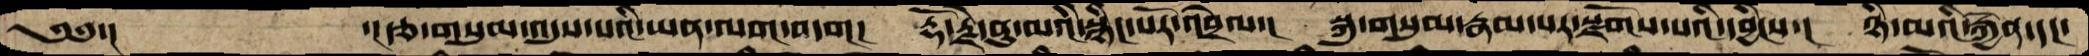༄༅་།           ་།རྩ་གསུམ་འདུས་པའི་ཡན་ལག་བདག།  རྡོ་རྗེ་ནུ་མའི་སྙིང་པོར་འབྲེལ་།   སྐུ་གསུམ་རྣམ་པར་སྫོགས་པའི་དབྱིངས་།  ཉི་མའི་རྐྱེན་དང་
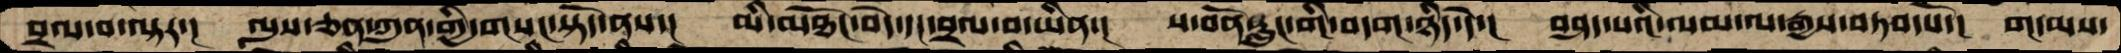བྲལ་བ་ལྟར་།  ལུས་ཅན་ཀུན་གྱི་གསང་སྟོད་ནས་།   མི་མཐོང་བདེ་དང་བྲལ་བ་ཡིན་།   ས་བོན་རླུང་གི་བདག་ཉིད་དེ་།   བཤད་པའི་ལམ་ལ་རྒྱས་བཏབ་པོ་།  གདམས་
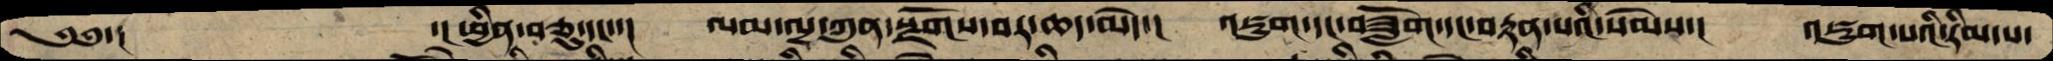༄༅་།      ་།ཕྱིན་བཅུ་དང་་།  ལམ་ལྔ་ཀུན་སྫོགས་བར་ཆད་མེད་།  འཇུག་དང་བཟློག་དང་བརྟན་པའི་སེམས་།  འཇུག་པའི་རིམ་པ་
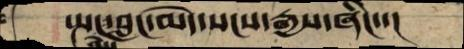སྤང་མེད་བླང་མེད་སངས་རྒྱས་ཞིང་་།
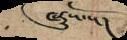ཞུས་སོ།
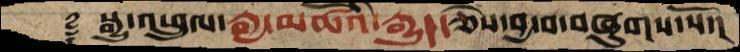࿑ སྒྱུ་འཕྲུལ་རྒྱ་མཚོའི་རྒྱུད་ཅེས་བྱ་བ་བཞུགས་སོ་།
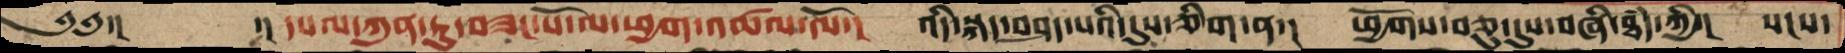༄༅་།     ་།དཔལ་ཀུན་ཏུ་བཟང་པོ་ལ་ཕྱག་འཚལ་ལོ་།  འདི་སྐད་བཤད་པའི་དུས་ཅིག་ན་།  ཕྱོགས་བཅུ་དུས་བཞི་ཐདཾ་ཀྱི་།  སངས་
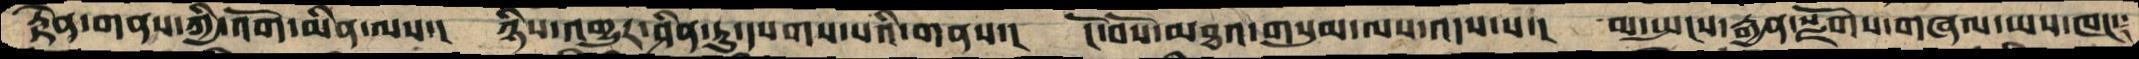རྟེན་གནས་ཀྱི་འོག་མིན་ལས་།  ཉིས་འགྱུར་ཤིན་ཏུ་དཔགས་པའི་གནས་།  ངོ་བོས་མཐའ་གསུམ་ལས་འདས་པ་།   མ་སྤངས་རྒྱན་སྫོགས་གཞལ་ཡས་ཁང་༑
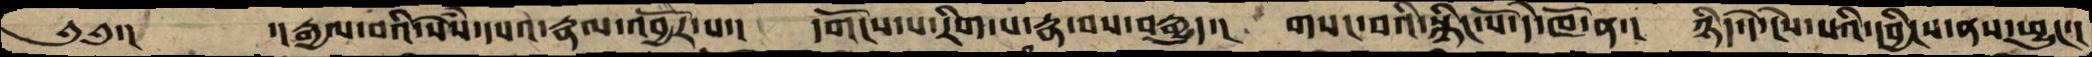༄༅་།     ་།རྒྱལ་བའི་སེཾས་དཔའ་རྣལ་འབྱོར་པ་།  དགོངས་པ་རིག་པ་རྣ་བས་བརྒྱུད་།  གསང་བའི་སྙིང་པོ་དེ་ཁོ་ན་།  ཉིད་དེ་ངེས་པའི་དབྱིངས་ནས་ཕྱུང་།
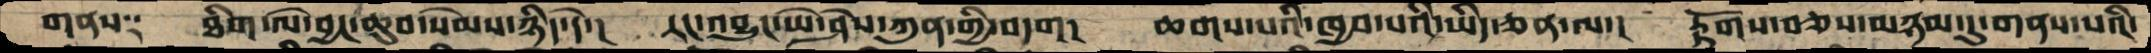གནས༑   ཐིག་ལེ་བྱང་ཆུབ་སེམས་ཉིད་དེ་།  རང་འབྱུང་ཡེ་ཤེས་ཀུན་གྱི་བདག།  ཆགས་པའི་ཁྱབ་པའི་ཡིད་ཅན་ལ་།  རྟོགས་བཅས་མཉམ་དུ་གནས་པའི་
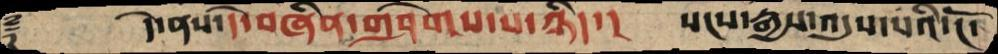࿑    དེ་ནས་དེ་བཞིན་གཤེགས་པ་ཉིད་།   སངས་རྒྱས་འདུས་པའི་ངོ་
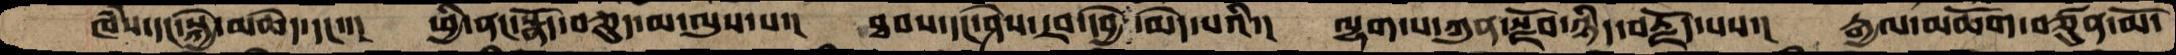ཁཾས་དང་སྐྱེ་མཆེད་དང་་།  ཕྱི་ནང་སྣོད་བཅུད་མ་ལུས་པ་།  ཐབས་དང་ཤེས་རབ་དབྱེར་མེད་པའི་།  ལྷག་པ་ཀུན་སྫོབ་ཉིད་བརྗོད་པས་།  རྒྱལ་མཆོག་བཙུན་མོ་
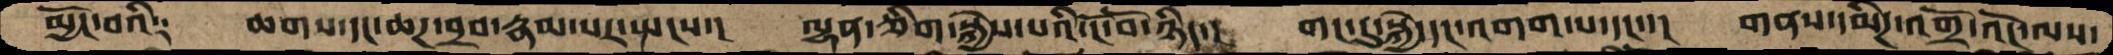མྱོང་བའི༑   ཆགས་དང་ཆཌ་བྲབ་རྣམ་པར་སྤངས་།  ལྷན་ཅིག་སྐྱེས་པའི་ངོ་བོ་ཉིད་།  གང་དུ་སྐྱེ་དང་འགག་པ་དང་་།  གནས་དམིཌ་འགྲོ་འོང་ལས་
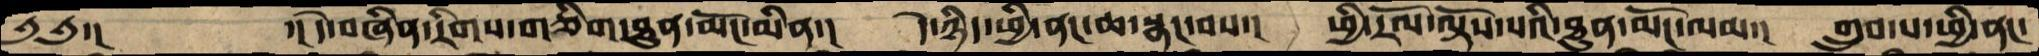༄༅་།     ་། དེ་བཞིན་རིགས་གཅིག་ཐུན་མོང་མིན་།  དེ་ཉིད་ཕྱི་ནང་ཆ་སྣང་བས་།  ཕྱི་རོལ་ལྟོས་པའི་ཐུན་མོང་ལམ་།  གྲུབ་པ་ཕྱི་ནང་
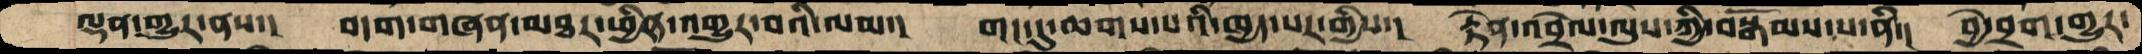ལྡན་གྱུར་ནས་།  བདག་གཞན་མཐར་ཕྱིན་འགྱུར་བའི་ལམ་།  གང་དུ་ཆགས་པའི་ཁྱད་པར་གྱིས་།  རྟེན་འབྲེལ་ལུས་ཀྱི་བསྒོམས་པ་ནི་།  བྱེ་བྲག་གྱུར་
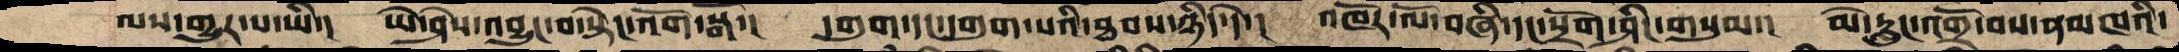ལས་གྱུར་པ་ཡི་།  ཡེ་ཤེས་འབྱུང་བ་སྟེང་འོག་སྒོ་།  དགུག་དང་དགུག་པའི་ཐབས་ཉིད་དེ་།  འཁོར་ལོ་བཞི་དང་སྲོག་ཤིང་གསུམ་།  མེ་རླུང་འགྲོ་བས་ནམཁའི་
